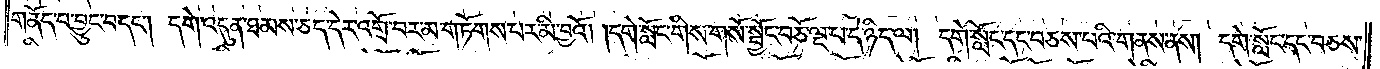གནོད་པ་བྱུང་བ་དང༌། དགེ་འདུན་ཐམས་ཅད་དེར་འགྲོ་བར་མ་གཏོགས་པར་མི་བྱའོ། །དགེ་སློང་གིས་གསོ་སྦྱོང་བཅོ་ལྔ་པ་དེ་ཉིད་ལ། དགེ་སློང་དང་བཅས་པའི་གནས་ནས། དགེ་སློང་དང་བཅས་
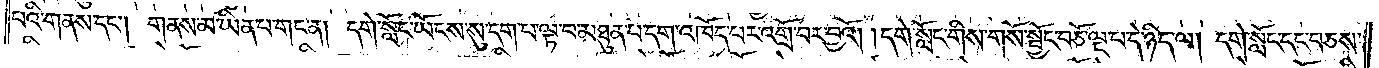པའི་གནས་དང༌། གནས་མ་ཡིན་པ་གང་ན། དགེ་སློང་ཡོངས་སུ་དག་པ་ལྟ་བ་མཐུན་པ་དག་འཁོད་པར་འགྲོ་བར་བྱའོ། །དགེ་སློང་གིས་གསོ་སྦྱོང་བཅོ་ལྔ་པ་དེ་ཉིད་ལ། དགེ་སློང་དང་བཅས་
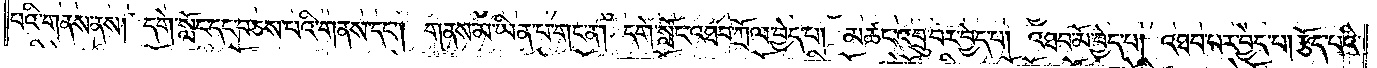པའི་གནས་ནས། དགེ་སློང་དང་བཅས་པའི་གནས་དང༌། གནས་མ་ཡིན་པ་གང་ན། དགེ་སློང་འཐབ་ཀྲོལ་བྱེད་པ། མཚང་འབྲུ་བར་བྱེད་པ། འཐབ་མོ་བྱེད་པ། འཐབ་པར་བྱེད་པ། རྩོད་པའི་
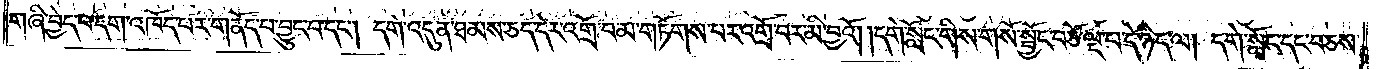གཞི་བྱེད་བ་དག་འཁོད་པར་གནོད་པ་བྱུང་བ་དང༌། དགེ་འདུན་ཐམས་ཅད་དེར་འགྲོ་བ་མ་གཏོགས་པར་འགྲོ་བར་མི་བྱའོ། །དགེ་སློང་གིས་གསོ་སྦྱོང་བཅོ་ལྔ་པ་དེ་ཉིད་ལ། དགེ་སློང་དང་བཅས་
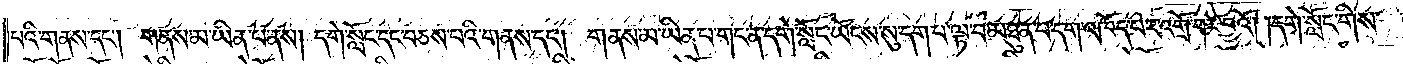པའི་གནས་དང༌། གནས་མ་ཡིན་པ་ནས། དགེ་སློང་དང་བཅས་པའི་གནས་དང༌། གནས་མ་ཡིན་པ་གང་ན་དགེ་སློང་ཡོངས་སུ་དག་པ་ལྟ་བ་མཐུན་པ་དག་འཁོད་པར་འགྲོ་བར་བྱའོ། །དགེ་སློང་གིས་
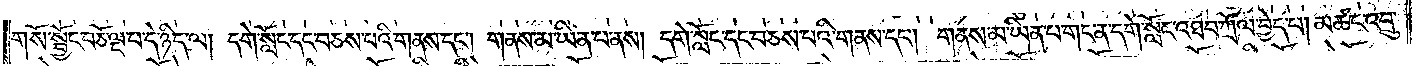གསོ་སྦྱོང་བཅོ་ལྔ་པ་དེ་ཉིད་ལ། དགེ་སློང་དང་བཅས་པའི་གནས་དང༌། གནས་མ་ཡིན་པ་ནས། དགེ་སློང་དང་བཅས་པའི་གནས་དང༌། གནས་མ་ཡིན་པ་གང་ན་དགེ་སློང་འཐབ་ཀྲོལ་བྱེད་པ། མཚང་འབྲུ་
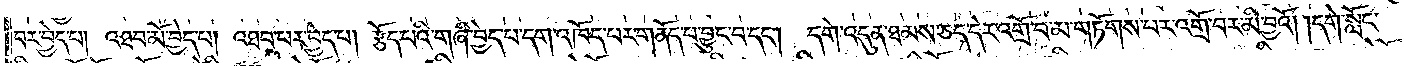བར་བྱེད་པ། འཐབ་མོ་བྱེད་པ། འཐབ་པར་བྱེད་པ། རྩོད་པའི་གཞི་བྱེད་པ་དག་འཁོད་པར་གནོད་པ་བྱུང་བ་དང༌། དགེ་འདུན་ཐམས་ཅད་དེར་འགྲོ་བ་མ་གཏོགས་པར་འགྲོ་བར་མི་བྱའོ། །དགེ་སློང་
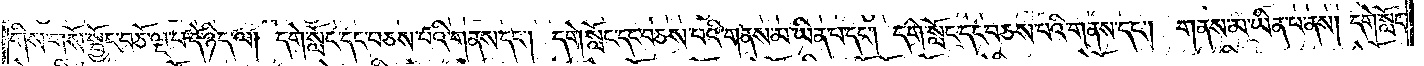གིས་གསོ་སྦྱོང་བཅོ་ལྔ་པ་དེ་ཉིད་ལ། དགེ་སློང་དང་བཅས་པའི་གནས་དང༌། དགེ་སློང་དང་བཅས་པའི་གནས་མ་ཡིན་པ་དང༌། དགེ་སློང་དང་བཅས་པའི་གནས་དང༌། གནས་མ་ཡིན་པ་ནས། དགེ་སློང་
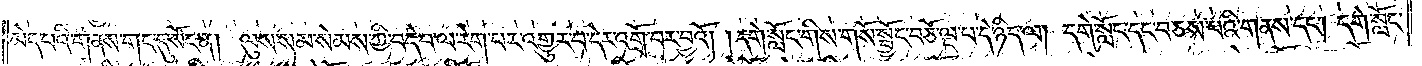མེད་པའི་གནས་གང་དུ་སོང་ན། ལུས་སམ་སེམས་ཀྱི་བདེ་བ་ལ་རེག་པར་འགྱུར་བ་དེར་འགྲོ་བར་བྱའོ། །དགེ་སློང་གིས་གསོ་སྦྱོང་བཅོ་ལྔ་པ་དེ་ཉིད་ལ། དགེ་སློང་དང་བཅས་པའི་གནས་དང༌། དགེ་སློང་
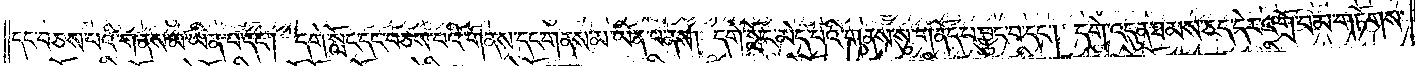དང་བཅས་པའི་གནས་མ་ཡིན་པ་དང༌། དགེ་སློང་དང་བཅས་པའི་གནས་དང་གནས་མ་ཡིན་པ་ནས། དགེ་སློང་མེད་པའི་གནས་སུ་གནོད་པ་བྱུང་བ་དང༌། དགེ་འདུན་ཐམས་ཅད་དེར་འགྲོ་བ་མ་གཏོགས་
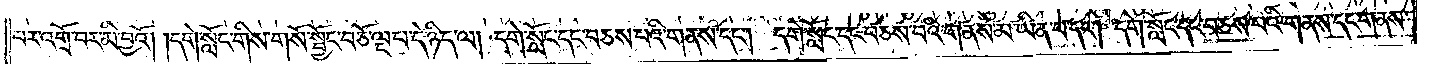བར་འགྲོ་བར་མི་བྱའོ། །དགེ་སློང་གིས་གསོ་སྦྱོང་བཅོ་ལྔ་པ་དེ་ཉིད་ལ། དགེ་སློང་དང་བཅས་པའི་གནས་དང༌། དགེ་སློང་དང་བཅས་པའི་གནས་མ་ཡིན་པ་དང༌། དགེ་སློང་དང་བཅས་པའི་གནས་དང་གནས་
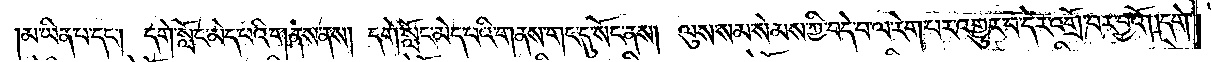མ་ཡིན་པ་དང༌། དགེ་སློང་མེད་པའི་གནས་ནས། དགེ་སློང་མེད་པའི་གནས་གང་དུ་སོང་ནས། ལུས་སམ་སེམས་ཀྱི་བདེ་བ་ལ་རེག་པར་འགྱུར་བ་དེར་འགྲོ་བར་བྱའོ། །དགེ་
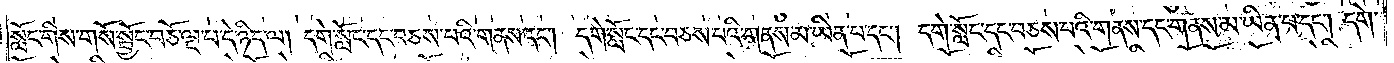སློང་གིས་གསོ་སྦྱོང་བཅོ་ལྔ་པ་དེ་ཉིད་ལ། དགེ་སློང་དང་བཅས་པའི་གནས་དང༌། དགེ་སློང་དང་བཅས་པའི་གནས་མ་ཡིན་པ་དང༌། དགེ་སློང་དང་བཅས་པའི་གནས་དང་གནས་མ་ཡིན་པ་དང༌། དགེ་
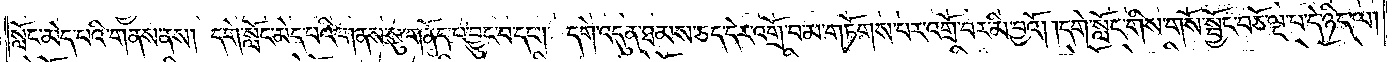སློང་མེད་པའི་གནས་ནས། དགེ་སློང་མེད་པའི་གནས་སུ་གནོད་པ་བྱུང་བ་དང༌། དགེ་འདུན་ཐམས་ཅད་དེར་འགྲོ་བ་མ་གཏོགས་པར་འགྲོ་བར་མི་བྱའོ། །དགེ་སློང་གིས་གསོ་སྦྱོང་བཅོ་ལྔ་པ་དེ་ཉིད་ལ།
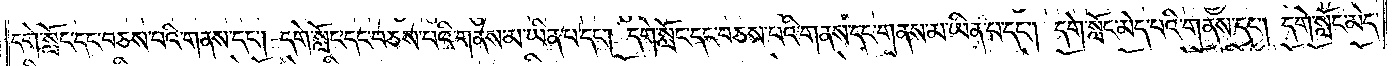དགེ་སློང་དང་བཅས་པའི་གནས་དང༌། དགེ་སློང་དང་བཅས་པའི་གནས་མ་ཡིན་པ་དང༌། དགེ་སློང་དང་བཅས་པའི་གནས་དང་གནས་མ་ཡིན་པ་དང༌། དགེ་སློང་མེད་པའི་གནས་དང༌། དགེ་སློང་མེད་
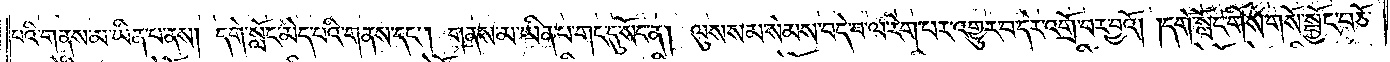བའི་གནས་མ་ཡིན་པ་ནས། དགེ་སློང་མེད་པའི་གནས་དང༌། གནས་མ་ཡིན་པ་གང་དུ་སོང་ན། ལུས་སམ་སེམས་བདེ་བ་ལ་རེག་པར་འགྱུར་བ་དེར་འགྲོ་བར་བྱའོ། །དགེ་སློང་གིས་གསོ་སྦྱོང་བཅོ་
